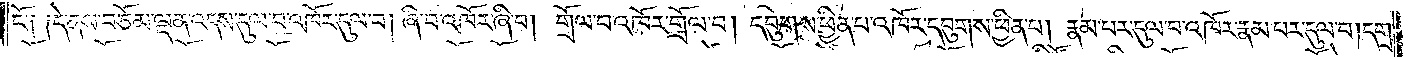ངོ་༑ ༑དེ་ནས་བཅོམ་ལྡན་འདས་དུལ་པ་འཁོར་དུ་བ། ཞི་བ་འཁོར་ཞི་བ། གྲོལ་བ་འཁོར་གྲོལ་བ། དབུགས་ཕྱིན་པ་འཁོར་དབུགས་ཕྱིན་པ། རྣམ་པར་དུལ་བ་འཁོར་རྣམ་པར་དུལ་བ། དགྲ་
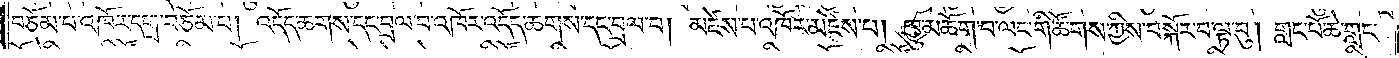བཅོམ་པ་འཁོར་དགྲ་བཅོམ་པ། འདོད་ཆགས་དང་བྲལ་བ་འཁོར་འདོད་ཆགས་དང་བྲལ། མཛེས་པར་འཁོར་མཛེས་པ། ཁྱུ་མཆོག་བ་ལང་གི་ཚོགས་ཀྱིས་བསྐོར་བ་ལྟ་བུ། གླང་པོ་ཆེ་གླང་
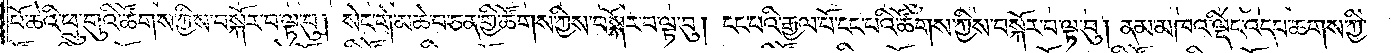པོ་ཆེའི་ཕྲུ་གུའི་ཚོགས་ཀྱིས་བསྐོར་བ་ལྟ་བུ། སེང་གེ་མཆེ་བ་ཅན་གྱི་ཚོགས་ཀྱིས་བསྐོར་བ་ལྟ་བུ། ངང་པའི་རྒྱལ་པོ་ངང་པའི་ཚོགས་ཀྱིས་བསྐོར་བ་ལྟ་བུ། ནམ་མཁའ་ལྡིང་འདབ་ཆགས་ཀྱི་
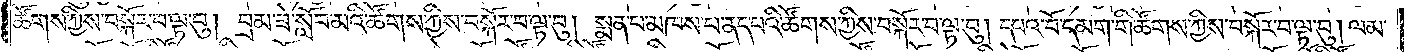ཚོགས་ཀྱིས་བསྐོར་བ་ལྟ་བུ། བྲམ་ཟེ་སློབ་མའི་ཚོགས་ཀྱིས་བསྐོར་བ་ལྟ་བུ། སྨན་པ་མཁས་པ་ནད་པའི་ཚོགས་ཀྱིས་བསྐོར་བ་ལྟ་བུ། དཔའ་བོ་དམག་གི་ཚོགས་ཀྱིས་བསྐོར་བ་ལྟ་བུ། ལམ་
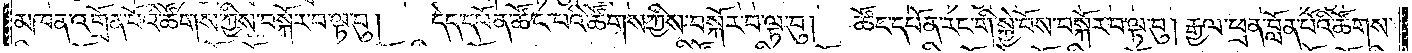མཁན་འགྲོན་པོའི་ཚོགས་ཀྱིས་བསྐོར་བ་ལྟ་བུ། དེད་དཔོན་ཚོང་པའི་ཚོགས་ཀྱིས་བསྐོར་བ་ལྟ་བུ།  ཚོང་དཔོན་རང་གི་སྐྱེ་བོས་བསྐོར་བ་ལྟ་བུ། རྒྱལ་ཕྲན་བློན་པོའི་ཚོགས་
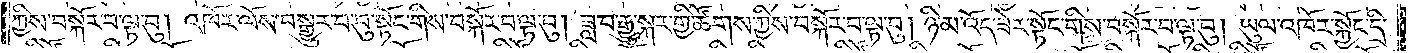ཀྱིས་བསྐོར་བ་ལྟ་བུ། འཁོར་ལོས་བསྒྱུར་བ་བུ་སྟོང་གིས་བསྐོར་བ་ལྟ་བུ། ཟླ་བ་རྒྱུ་སྐར་གྱི་ཚོགས་ཀྱིས་བསྐོར་བ་ལྟ་བུ། ཉི་མ་འོད་ཟེར་སྟོང་གིས་བསྐོར་བ་ལྟ་བུ། ཡུལ་འཁོར་སྐྱོང་དྲི་
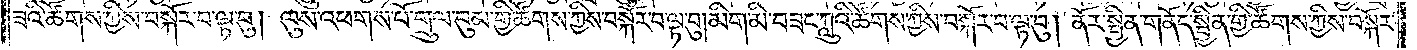པའི་ཚོགས་ཀྱིས་བསྐོར་བ་ལྟ་བུ། ལུས་འཕགས་པོ་གྲུལ་བུམ་གྱི་ཚོགས་ཀྱིས་བསྐོར་བ་ལྟ་བུ། མིག་མི་བཟང་ཀླུའི་ཚོགས་ཀྱིས་བསྐོར་བ་ལྟ་བུ། ནོར་སྦྱིན་གནོད་སྦྱིན་གྱི་ཚོགས་ཀྱིས་བསྐོར་
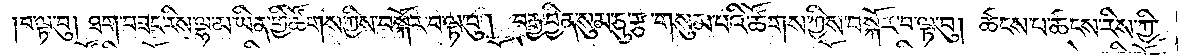བ་ལྟ་བུ། ཐག་བཟང་རིས་ལྷ་མ་ཡིན་གྱི་ཚོགས་ཀྱིས་བསྐོར་བ་ལྟ་བུ། བརྒྱ་བྱིན་སུམ་ཅུ་རྩ་གསུམ་པའི་ཚོགས་ཀྱིས་བསྐོར་བ་ལྟ་བུ། ཚངས་པ་ཚངས་རིས་ཀྱི་
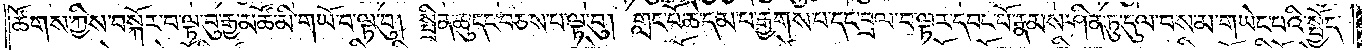ཚོགས་ཀྱིས་བསྐོར་བ་ལྟ་བུ་རྒྱ་མཚོ་མི་གཡོ་བ་ལྟ་བུ། སྤྲིན་ཆུ་དང་བཅས་པ་ལྟ་བུ། གླང་པོ་ཆེ་དམ་པ་རྒྱགས་པ་དང་བྲལ་བ་ལྟར་དབང་པོ་རྣམས་ཤིན་ཏུ་དུལ་བསམ་གཡེང་པའི་སྤྱོད་
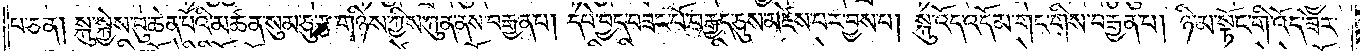པ་ཅན། སྐུ་སྐྱེས་བུ་ཆེན་པོའི་མཚན་སུམ་ཅུ་རྩ་གཉིས་ཀྱིས་ཀུན་ནས་བརྒྱན་པ། དཔེ་བྱད་བཟང་པོ་བརྒྱད་ཅུས་མཛེས་པར་བྱས་པ། སྐུ་འོད་འདོམ་གང་གིས་བརྒྱན་པ། ཉི་མ་སྟོང་གི་འོད་ཟེར་
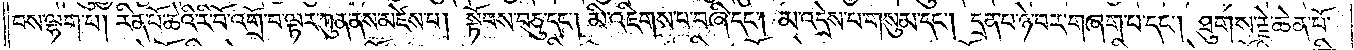བས་ལྷག་པ། རིན་པོ་ཆེའི་རི་བོ་འགྲོ་བ་ལྟར་ཀུན་ནས་མཛེས་པ། སྟོབས་བཅུ་དང༌། མི་འཇིགས་པ་བཞི་དང༌། མ་འདྲེས་པ་གསུམ་དང༌། དྲན་པ་ཉེ་བར་གཞག་པ་དང༌། ཐུགས་རྗེ་ཆེན་པོ་
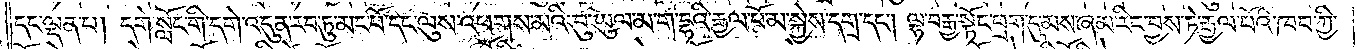དང་ལྡན་པ། དགེ་སློང་གི་དགེ་འདུན་རབ་ཏུ་མང་པོ་དང་ལུས་འཕགས་མའི་བུ་ཡུལ་མ་ག་དྷའི་རྒྱལ་པོ་མ་སྐྱེས་དགྲ་དང༌། ལྷ་བརྒྱ་སྟོང་ཕྲག་དུ་མས་ཞམ་རིང་བྱས་ཏེ་རྒྱལ་པོའི་ཁབ་ཀྱི་
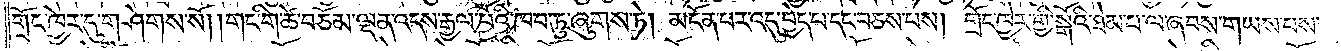གྲོང་ཁྱེར་དུ་གཤེགས་སོ། །གང་གི་ཚེ་བཅོམ་ལྡན་འདས་རྒྱལ་པོའི་ཁབ་ཏུ་ཞུགས་ཏེ། མངོན་པར་འདུ་བྱེད་པ་དང་བཅས་པས། གྲོང་ཁྱེར་གྱི་སྒོའི་ཐེམ་པ་ལ་ཞབས་གཡས་པས་
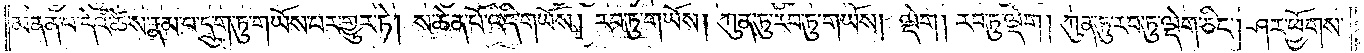མནན་པ་དེའི་ཚེས་རྣམ་པ་དྲུག་ཏུ་གཡོས་པར་གྱུར་ཏེ། ས་ཆེན་པོ་འདི་གཡོས། རབ་ཏུ་གཡོས། ཀུན་ཏུ་རབ་ཏུ་གཡོས། ལྡེག །རབ་ཏུ་ལྡེག །ཀུན་ཏུ་རབ་ཏུ་ལྡེག་ཅིང༌། ཤར་ཕྱོགས་
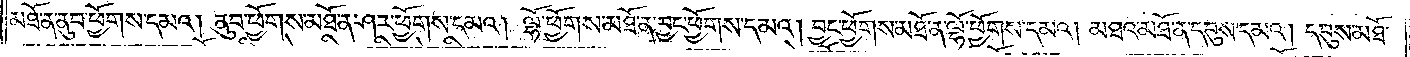མཐོ་ན་ནུབ་ཕྱོགས་དམའ། ནུབ་ཕྱོགས་མཐོ་ན་ཤར་ཕྱོགས་དམའ། ལྷོ་ཕྱོགས་མཐོ་ན་བྱང་ཕྱོགས་དམའ། བྱང་ཕྱོགས་མཐོ་ན་ལྷོ་ཕྱོགས་དམའ། མཐའ་མཐོ་ན་དབུས་དམའ། དབུས་མཐོ་
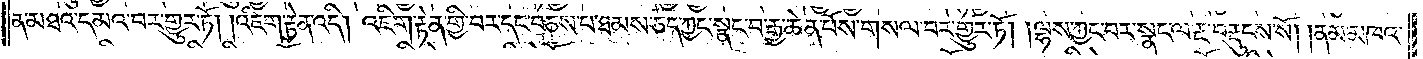ན་མཐའ་དམའ་བར་གྱུར་ཏོ། །འཇིག་རྟེན་འདི། འཇིག་རྟེན་གྱི་བར་དང་བཅས་པ་ཐམས་ཅད་ཀྱང་སྣང་བ་རྒྱ་ཆེན་པོས་གསལ་བར་གྱུར་ཏོ། །ལྷས་ཀྱང་བར་སྣང་ལ་རྔ་བརྡུངས་སོ། །ནམ་མཁའ་
